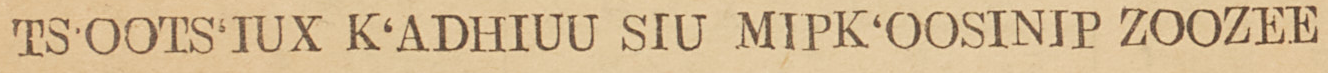TS'OOTS'IUX K'ADHIUU SIU MIPK'OOSINIP ZOOZEE
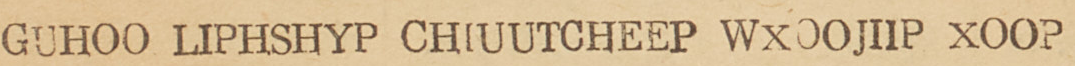GUHOO LIPHSHYP CHIUUTCHEEP WXOOJIIP XOOP
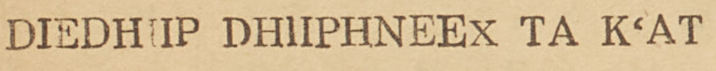DIEDHIIP DHIIPHNEEX TA K'AT
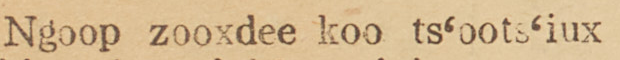Ngoop zooxdee koo ts'oots'iux
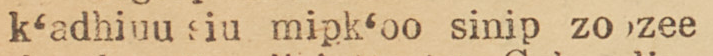k'adhiuu siu mipk'oo sinip zoozee
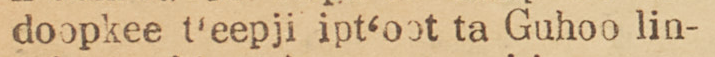doopkee t'eepji ipt'oot ta Guhoo lin-
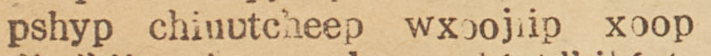pshyp chiuptcheep wxoojiip xoop
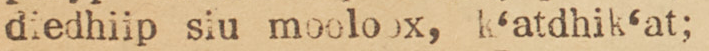diedhiip siu mooloox, k'atdhik'at;
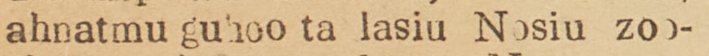ahnatmu guhoo ta lasiu Nosiu zoo-
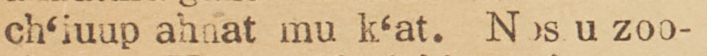ch'iuup ahnat mu k'at. Nos u zoo-
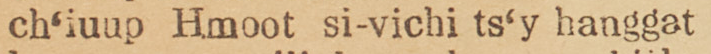ch'iuup Hmoot si-vichi ts'y hanggat
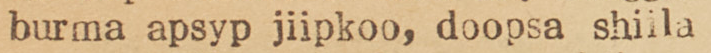burma apsyp jiipkoo, doopsa shiila
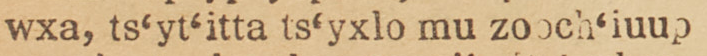wxa, ts'yt'itta ts'yxlo mu zooch'iuup
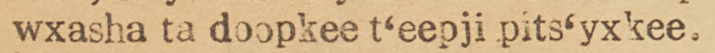wxasha ta doopkee t'eepji pits'yxkee.
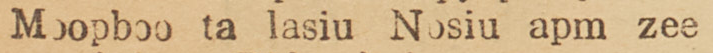Moopboo ta lasiu Nosiu apm zee
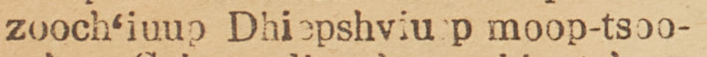zooch'iuup Dhiepshviu p moop-tsoo-
